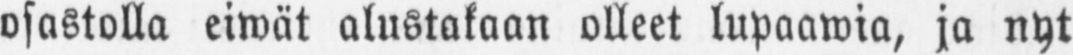osastolla eiwät alustakaan olleet lupaawia, ja nyt
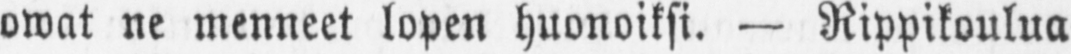owat ne menneet lopen huonoiksi. — Rippikoulua
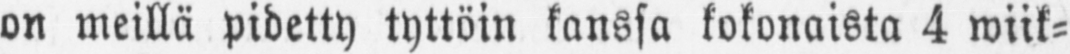on meillä pidetty tyttöin kanssa kokonaista 4 wii-
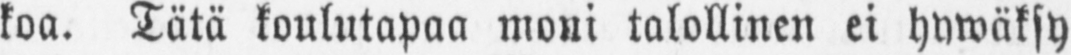koa. Tätä koulutapaa moni talollinen ei hywäksy
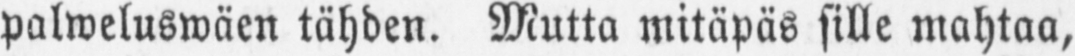palweluswäen tähden. Mutta mitäpäs sille mahtaa,
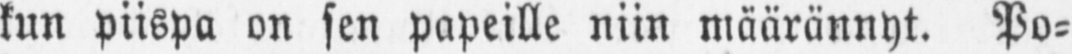kun piispa on sen papeille niin määrännyt. Po-
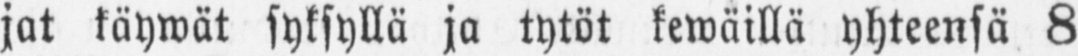jat käywät syksyllä ja tytöt kewäillä yhteensä 8
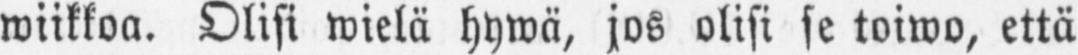wiikkoa. Olisi wielä hywä, jos olisi se toiwo, että
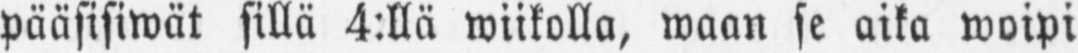pääsisiwät sillä 4:llä wiikolla, waan se aika woipi
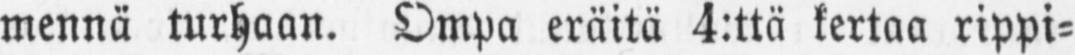mennä turhaan. Ompa eräitä 4:ttä kertaa rippi-
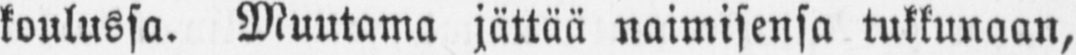koulussa. Muutama jättää naimisensa tukkunaan,
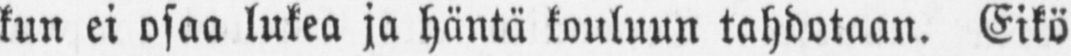kun ei osaa lukea ja häntä kouluun tahdotaan. Eikö
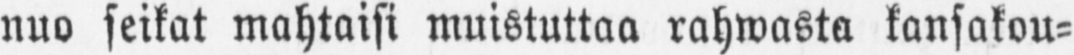nuo seikat mahtaisi muistuttaa rahwasta kansakou-
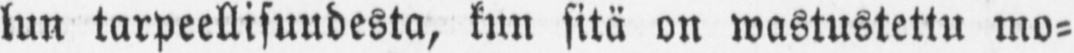lun tarpeellisuudesta, kun sitä on wastustettu mo-
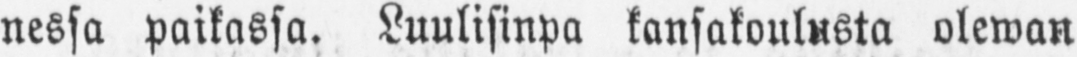nessa paikassa. Luulisinpä kansakoulusta olewan
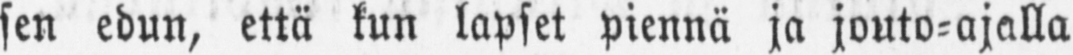sen edun, että kun lapset piennä ja jouto-ajalla
